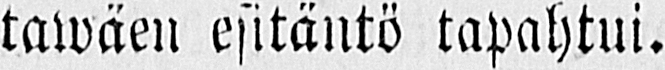tawäen esitäntö tapahtui.
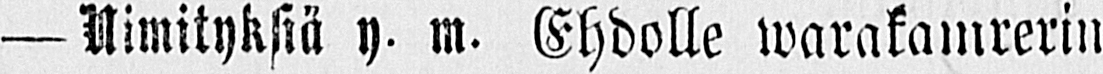— Nimityksiä y. m. Ehdolle warakamrerin
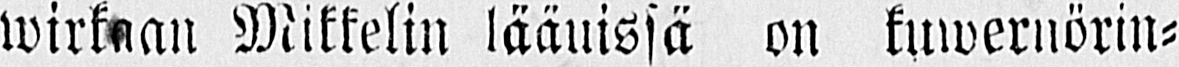wirkaan Mikkelin lääuissä on kuwernörin-
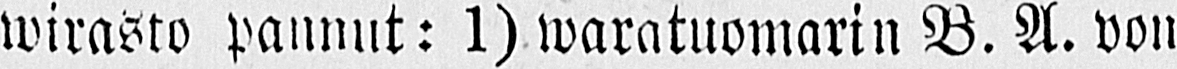wirasto pannut: 1) waratuomarin B. A. von
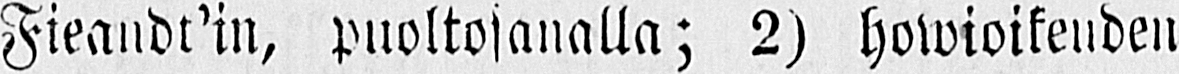Fieandt'in, puoltosanalla; 2) howioikeuden
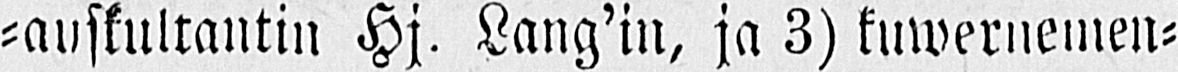-auskultantin Hj. Lang'in, ja 3) kuwernemen-
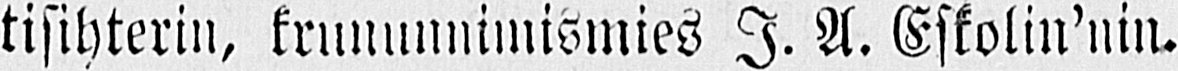tisihterin, krununnimismies J. A. Eskolin'nin.
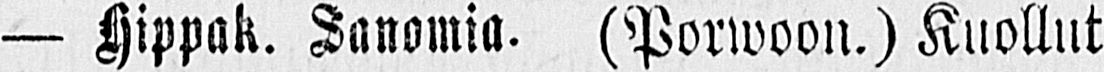— Hippak. Sanomia. (Porwoon.) Kuollut
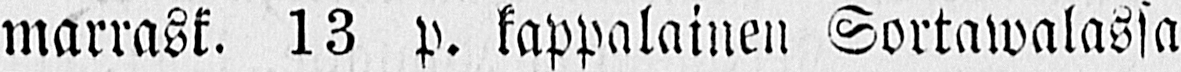marrask. 13 p. kappalainen Sortawalassa
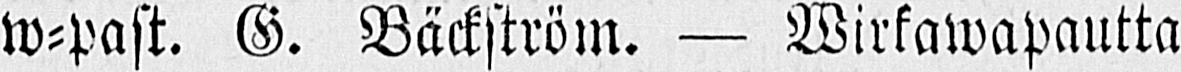W-past. G. Bäckström. — Wirkawapautta
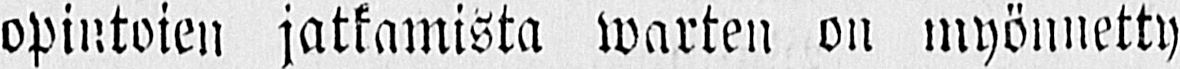opintojen jatkamista warten on myönnetty
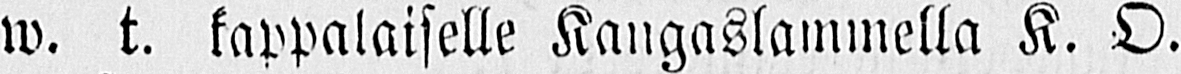w. t. kappalaiselle Kangaslammella K. O.
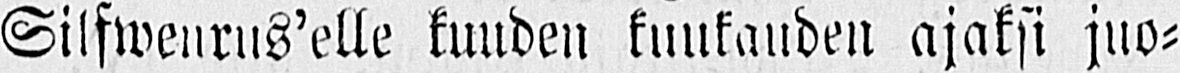Silfwenrus'elle kuuden kuukauden ajaksi juo-
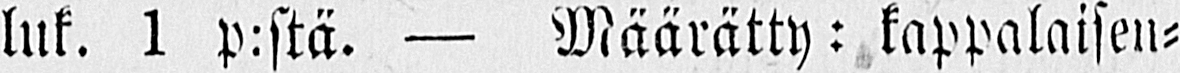luk. 1 p:stä. — Määrätty: kappalaisen-
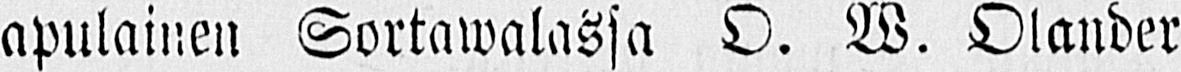apulainen Sortawalassa O. W. Olander
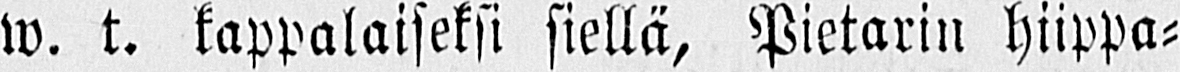w. t. kappalaiseksi siellä, Pietarin hiippa-
